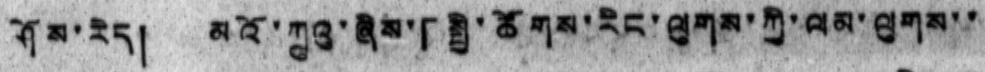ཤོས་རེད། མའོ་ཀྲུའུ་ཞིས་「སྤྱི་ཚོགས་རིང་ལུགས་ཀྱི་ལམ་ལུགས་་
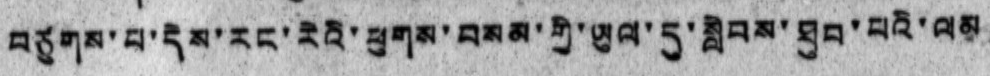བཙུགས་པ་དེས་རང་རེའི་ཕུགས་བསམ་གྱི་ཡུལ་དུ་སླེབས་ཐུབ་པའི་ལམ
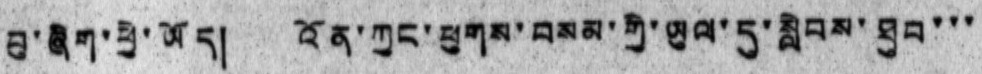བུ་ཞིག་ཕྱེ་ཡོད། འོན་ཀྱང་ཕུགས་བསམ་གྱི་ཡུལ་དུ་སླེབས་ཐུབ་་་
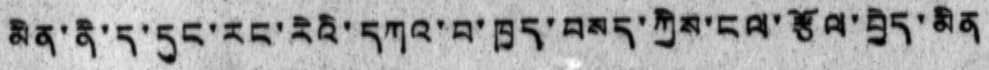མིན་ནི་ད་དུང་རང་རེའི་དཀའ་བ་ཁྱད་བསད་ཀྱིས་ངལ་རྩོལ་བྱེད་མིན
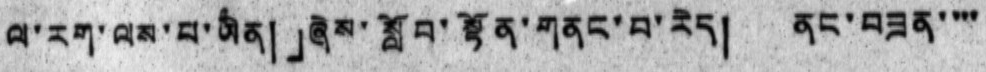ལ་རག་ལས་པ་ཡིན།」ཞེས་སློབ་སྟོན་གནང་བ་རེད། ནང་བཟན་་་་
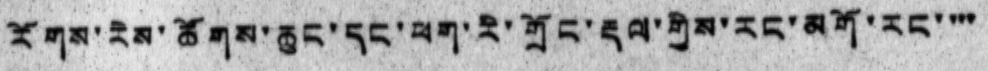རོགས་རེས་ཚོགས་ཆུང་དང་ཕག་རི་གྲོང་རྡལ་གྱིས་རང་མགོ་རང་་་་
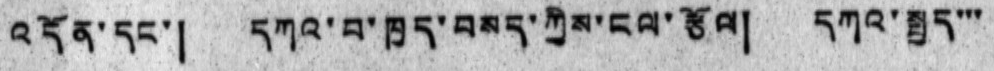འདོན་དང་། དཀའ་བ་ཁྱད་བསད་ཀྱིས་ངལ་རྩོལ། དཀའ་སྤྱད་་་
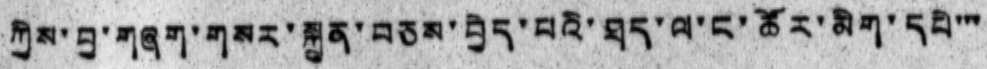ཀྱིས་བྱ་གཞག་གསར་སྐྲུན་བཅས་བྱེད་པའི་ཐད་ལ་ང་ཚོར་མིག་དཔེ་་་
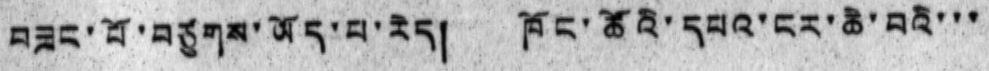བཟང་པོ་བཙུགས་ཡོད་པ་རེད། ཁོང་ཚོའི་དཔའ་ངར་ཆེ་བའི་་་
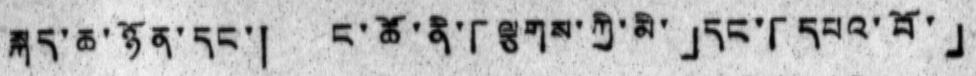སྐད་ཆ་ཉོན་དང་། ང་ཚོ་ནི་「ལྕགས་ཀྱི་མི་」དང་「དཔའ་བོ་」
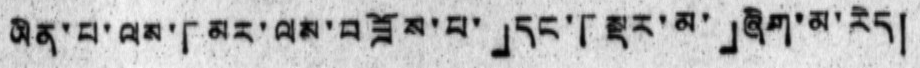ཡིན་པ་ལས་「མར་ལས་བཟོས་པ་」དང་「སྡར་མ་」ཞིག་མ་རེད།
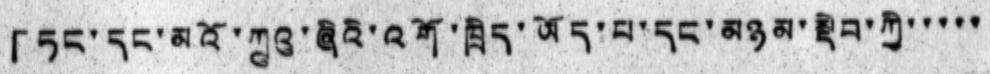「ཏང་དང་མའོ་ཀྲུའུ་ཞིའི་འགོ་ཁྲིད་ཡོད་པ་དང་མཉམ་སྡེབ་ཀྱི་་་་་
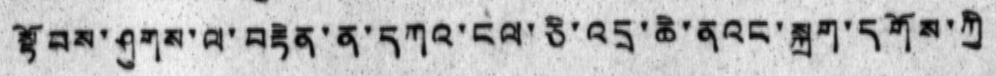སྟོབས་ཤུགས་ལ་བརྟེན་ན་དཀའ་ངལ་ཅི་འདྲ་ཆེ་ནའང་སྐྲག་དགོས་ཀྱི
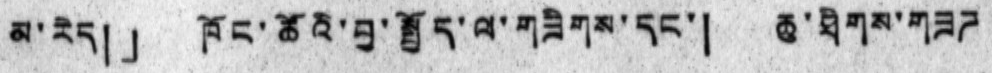མ་རེད།」ཁོང་ཚོའི་བྱ་སྤྱོད་ལ་གཟིགས་དང་། ཆུ་ཐིགས་གཟཌ
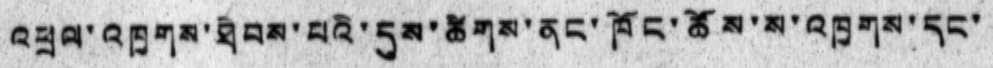འཕྲལ་འཁྲགས་ཐེབས་པའི་དུས་ཚིགས་ནང་ཁོང་ཚོས་མ་འཁྱགས་དང་
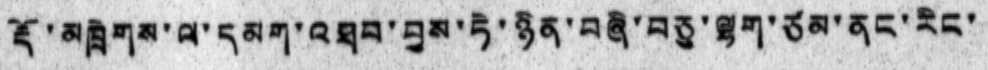རྡོ་མཁྲེགས་ལ་དམག་འཐབ་བྱས་ཏེ་ཉིན་ཏེ་ཉིན་བཞི་བཅུ་ལྷག་ཙམ་ནང་རིང་
